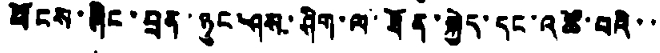ཕོངས་ཞིང་བྲན་ཉུང་ཤས་ཤིག་ལ་ཐོན་སྐྱེད་དང་འཚོ་བའི་་
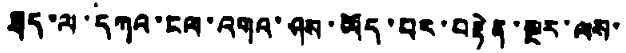ཐད་ལ་དཀའ་ངལ་འགའ་ཤས་ཡོད་པར་བརྟེན་སྔར་ལས་
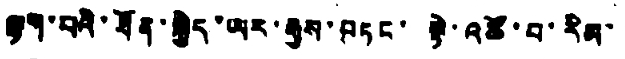ལྷག་པའི་ཐོན་སྐྱེད་ཡར་རྒྱས་བཏང་སྟེ་འཚོ་བ་རིམ་
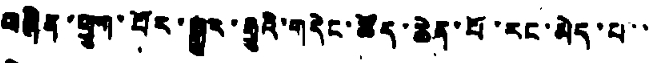བཞིན་ཕྱུག་པོར་སྒྱུར་རྒྱུའི་གདེང་ཚོད་ཆེན་པོ་རང་མེད་པ་་
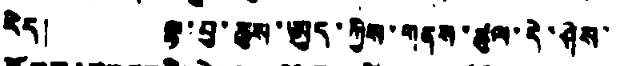རེད། ལྷ་བུ་ཆུས་ཨུད་ཀྱིས་གནས་ཚུལ་དེ་ཤེས་
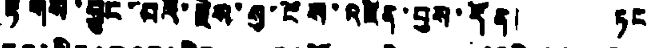རྟོགས་བྱུང་བའི་རྗེས་སུ་ངོས་འཛིན་བྱས་དོན། ཏང
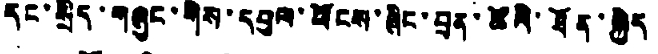དང་སྲིད་གཞུང་གིས་དབུལ་ཕོངས་ཞིང་བྲན་ཚོའི་ཐོན་སྐྱེད
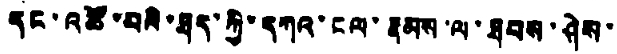དང་འཚོ་བའི་ཐད་ཀྱི་དཀའ་ངལ་རྣམས་ལ་ཐབས་ཤེས་
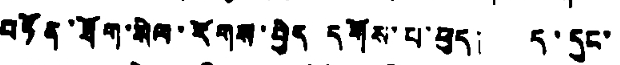བཏོན་ཐོག་སེལ་རོགས་བྱེད་དགོས་པ་ཕུད། ད་དུང་
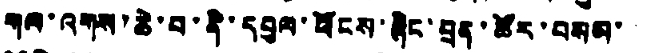གལ་འགས་ཆེ་བ་ནི་དབུལ་ཕོངས་ཞིང་བྲན་ཚོར་བསམ་
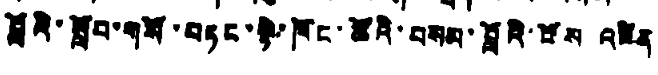བློའི་སློབ་གསོ་བཏང་སྟེ་ཁོང་ཚོའི་བསམ་བློའི་ངོས འཛིན
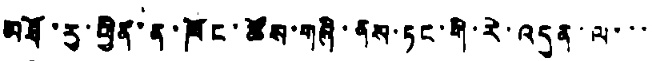མཐོ་རུ་ཕྱིན་ན་ཁོང་ཚོས་གཞི་ནས་ཏང་གི་རེ་འདུན་ལ་་་
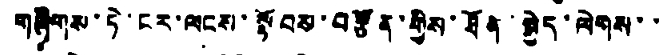གཞིགས་ཏེ་ངར་ལངས་སྟོབས་བརྩོན་གྱིས་ཐོན་སྐྱེད་ལེགས་་
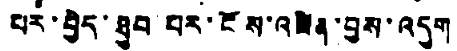པར་བྱེད་ཐུབ་པར་ངོས་འཛིན་བྱས་འདུག
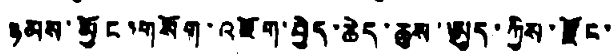ཉམས་མྱོང་གསོག་འཇོག་བྱེད་ཆེད་ཆུས་ཨུད་ཀྱིས་རྫོང་
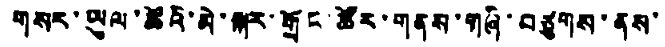གསར་ཡུལ་ཚོའི་མེ་སྐར་གྲོང་ཚོར་གནས་གཞི་བཙུགས་ནས་
